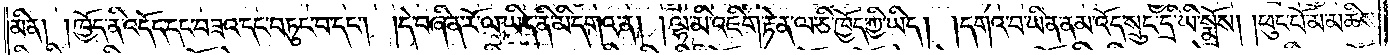མིན། །ཁྱོད་ནི་འདོད་དང་བཟའ་དང་བཏུང་བ་དང༌། །དེ་བཞིན་རོ་ལ་ཡིད་ནི་མི་དགའ་ན། །ལྷ་མི་འཇིག་རྟེན་ལ་ཅི་ཁྱོད་ཀྱི་ཡིད། །དགའ་བ་ཡིན་ནམ་འོད་སྲུང་དྲི་ཡི་སྨྲོས། །ཕུང་པོ་མ་མཆིས་
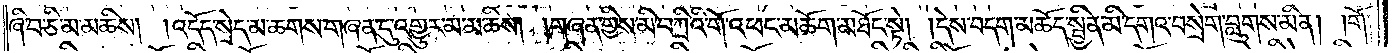ཞི་བ་ཅི་མ་མཆིས། །འདོད་སྲེད་མ་ཆགས་གཞན་དུ་འགྱུར་མ་མཆིས། །གཞན་གྱིས་མི་བཀྲིའི་གོ་འཕང་མཆོག་མཐོང་སྟེ། །དེས་བདག་མཆོད་སྦྱིན་མི་དགའ་བསྲེག་བླུགས་མིན། །གོ་
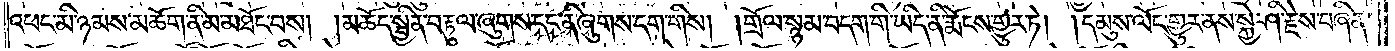འཕང་མི་ཉམས་མཆོག་ནི་མ་མཐོང་བས། །མཆོད་སྦྱིན་པ་བརྟུལ་ཞུགས་དང་ནི་ཞུགས་དག་གིས། །གྲོལ་སྙམ་བདག་གི་ཡིད་ནི་རྨོངས་གྱུར་ཏེ། །དམུས་ལོང་གྱུར་ནས་སྐྱེ་ཤི་རྗེས་བཞིན་
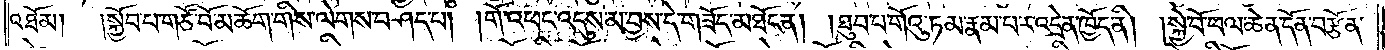འཐོམ། །སྐྱོབ་པ་གཙོ་བོ་མཆོག་གིས་ལེགས་བཤད་པ། །གོ་འཕང་འདུས་མ་བྱས་དེ་གཟོད་མཐོང་ན། །ཐུབ་པ་གོའུ་ཏ་མ་རྣམ་པར་འདྲེན་ཁྱོད་ནི། །སྐྱེ་བོ་ཕལ་ཆེན་དོན་བརྩོན་
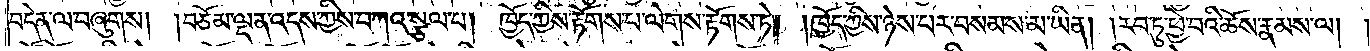བདེན་ལ་བཞུགས། །བཅོམ་ལྡན་འདས་ཀྱིས་བཀའ་སྩལ་པ། ཁྱོད་ཀྱིས་རྟོགས་པ་ལེགས་རྟོགས་ཏེ། །ཁྱོད་ཀྱིས་ཉེས་པར་བསམས་མ་ཡིན། །རབ་ཏུ་ཕྱེ་བའི་ཆོས་རྣམས་ལ། །
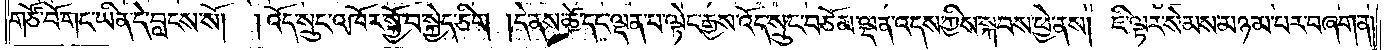གཙོ་བོ་གང་ཡིན་དེ་བླངས་སོ། །འོད་སྲུང་འཁོར་སྐྱོ་བ་སྐྱེད་ཅིག །དེ་ནས་ཚེ་དང་ལྡན་པ་ལྟེང་རྒྱས་འོད་སྲུང་བཅོམ་ལྡན་འདས་ཀྱིས་སྐབས་ཕྱེ་ནས། ཇི་ལྟར་སེམས་མཉམ་པར་བཞག་ན།
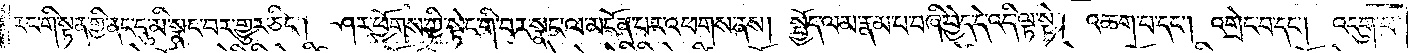རང་གི་སྟན་གྱི་ནང་དུ་མི་སྣང་བར་གྱུར་ཅིང༌། ཤར་ཕྱོགས་ཀྱི་སྟེང་གི་བར་སྣང་ལ་མངོན་པར་འཕགས་ནས། སྤྱོད་ལམ་རྣམ་པ་བཞི་བྱེད་དེ་འདི་ལྟ་སྟེ། འཆག་པ་དང༌། འགྲེང་བ་དང༌། འདུག་པ་
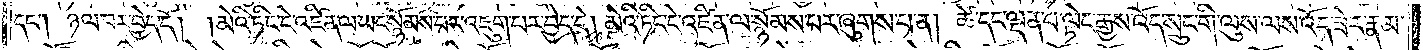དང༌། ཉལ་བར་བྱེད་དོ། །མེའི་ཏིང་ངེ་འཛིན་ལ་ཡང་སྙོམས་པར་འཇུག་པར་བྱེད་དེ། མེའི་ཏིང་ངེ་འཛིན་ལ་སྙོམས་པར་ཞུགས་པ་ན། ཚེ་དང་ལྡན་པ་ལྟེང་རྒྱས་འོད་སྲུང་གི་ལུས་ལས་འོད་ཟེར་རྣམ་
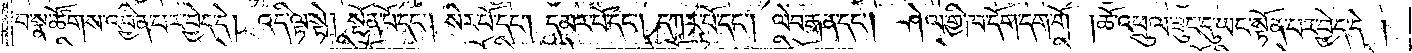བ་སྣ་ཚོགས་འབྱིན་པར་བྱེད་དེ། འདི་ལྟ་སྟེ། སྔོན་པོ་དང༌། སེར་པོ་དང༌། དམར་པོ་དང༌། དཀར་པོ་དང༌། ལེབ་རྒན་དང༌། ཤེལ་གྱི་ཁ་དོག་དག་གོ །ཆོ་འཕྲུལ་ཟུང་དུ་ཡང་སྟོན་པར་བྱེད་དེ།
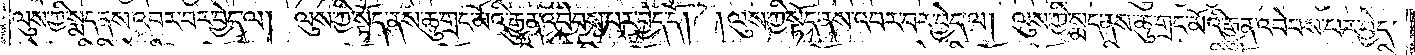ལུས་ཀྱི་སྨད་ནས་འབར་བར་བྱེད་ལ། ལུས་ཀྱི་སྟོད་ནས་ཆུ་གྲང་མོའི་རྒྱུན་འབེབས་པར་བྱེད་དོ། །ལུས་ཀྱི་སྟོད་ནས་འབར་བར་བྱེད་ལ། ལུས་ཀྱི་སྨད་ནས་ཆུ་གྲང་མོའི་རྒྱུན་འབེབས་པར་བྱེད་
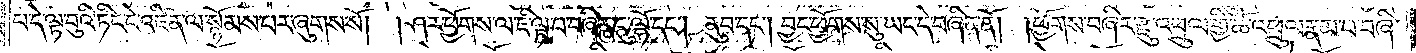པ་དེ་ལྟ་བུའི་ཏིང་ངེ་འཛིན་ལ་སྙོམས་པར་ཞུགས་སོ། །ཤར་ཕྱོགས་ལ་ཇི་ལྟ་བ་བཞིན་དུ་ལྷོ་དང༌། ནུབ་དང༌། བྱང་ཕྱོགས་སུ་ཡང་དེ་བཞིན་ནོ། །ཕྱོགས་བཞིར་རྫུ་འཕྲུལ་གྱི་ཆོ་འཕྲུལ་རྣམ་པ་བཞི་
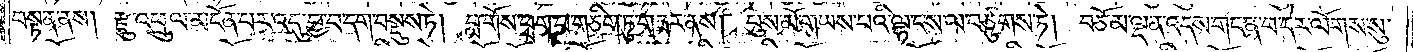བསྟན་ནས། རྫུ་འཕྲུལ་མངོན་པར་འདུ་བྱ་བ་དག་བསྡུས་ཏེ། བླ་གོས་ཕྲག་པ་གཅིག་ཏུ་གཟར་ནས། པུས་མོ་གཡས་པའི་ལྷ་ང་ས་ལ་བཙུགས་ཏེ། བཅོམ་ལྡན་འདས་གང་ན་བ་དེར་ལོགས་སུ་
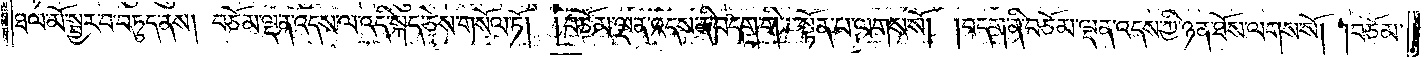ཐལ་མོ་སྦྱར་བ་བཏུད་ནས། བཅོམ་ལྡན་འདས་ལ་འདི་སྐད་ཅེས་གསོལ་ཏོ།<gap>།བཅོམ་ལྡན་འདས་ནི་བདག་གི་སྟོན་པ་ལགས་སོ། །བདག་ནི་བཅོམ་ལྡན་འདས་ཀྱི་ཉན་ཐོས་ལགས་སོ། །བཅོམ་
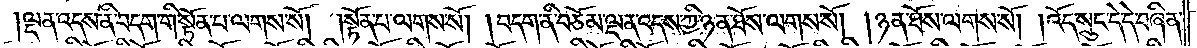ལྡན་འདས་ནི་བདག་གི་སྟོན་པ་ལགས་སོ། །སྟོན་པ་ལགས་སོ། །བདག་ནི་བཅོམ་ལྡན་འདས་ཀྱི་ཉན་ཐོས་ལགས་སོ། །ཉན་ཐོས་ལགས་སོ། །འོད་སྲུང་དེ་དེ་བཞིན་
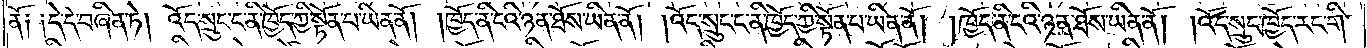ནོ༑ ༑དེ་དེ་བཞིན་ཏེ། འོད་སྲུང་ང་ནི་ཁྱོད་ཀྱི་སྟོན་པ་ཡིན་ནོ། །ཁྱོད་ནི་ངའི་ཉན་ཐོས་ཡིན་ནོ། །འོད་སྲུང་ང་ནི་ཁྱོད་ཀྱི་སྟོན་པ་ཡིན་ནོ། །ཁྱོད་ནི་ངའི་ཉན་ཐོས་ཡིན་ནོ། །འོད་སྲུང་ཁྱོད་རང་གི་
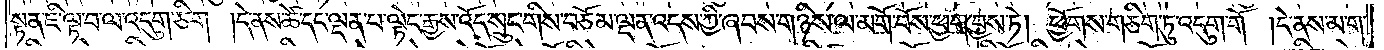སྟན་ཇི་ལྟ་བ་ལ་འདུག་ཅིག །དེ་ནས་ཚེ་དང་ལྡན་པ་ལྟེང་རྒྱས་འོད་སྲུང་གིས་བཅོམ་ལྡན་འདས་ཀྱི་ཞབས་གཉིས་ལ་མགོ་བོས་ཕྱག་བྱས་ཏེ། ཕྱོགས་གཅིག་ཏུ་འདུག་གོ །དེ་ནས་མ་ག་
